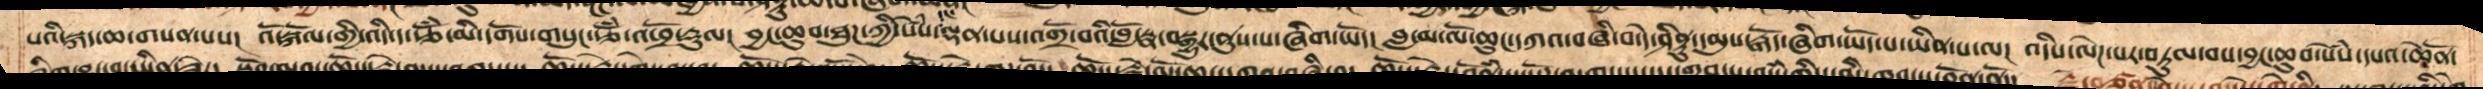པའི་སྐད་ཆ་གསན་པས། འོ་སྐོལ་གྱི་འདི་ད་རྩོཾ་མི་དགོས་གསུང་རྩོཾ་འཕྲོ་རྟུལ། བྱང་ཆུབ་ཐུཌ་ཀྱི་སེཾས་དང་ལྡན་པས་འགྲོ་བའི་བློ་སྣ་བསྒྱུར་ནུས་པ་ཞིག་ཡོད། བླ་མ་ལོ་ཆུང་དཀའ་བཞི་བ་དེ་ཤིནྟུ་དམུས་རྒོད་ཞིག་ཡོད་པ་ཡིན་པ་ལ། འདིས་ལེཌ་པར་བཏུལ་བས་བྱང་ཆུབ་སེཾས་དཔའ་ཆེནོ་
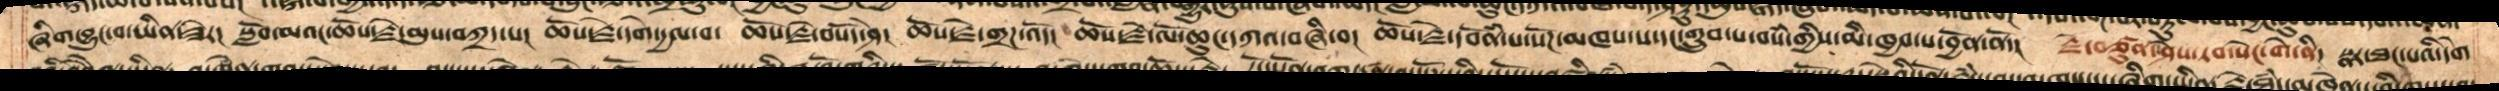ཞིག་བྱུང་བ་ཡིན་ཟེར། སློབ་མའང་ཆོས་རྗེ་མུས་བཀྲད་པ། ཆོས་རྗེ་དགེ་དྱལ་བ་ ཆོས་རྗེ་བསོད་ཤེ། ཆོས་རྗེ་གྲཌ་འོད། ཆོས་རྗེ་ལོ་ཆུང་དཀའ་བཞི་བ། ཆོས་རྗེ་དབོནཾ་པ་སོཌ་མཁས་པ་དང་གྲུབ་པ་བསཾ་གྱིས་མི་ཁྱབ་པ་བྱོན་ནོ་།  རྗེ་བཙུན་ཤེས་རབ་སེང་གེ་ནི། སྣར་ཐང་པའི་དགེ
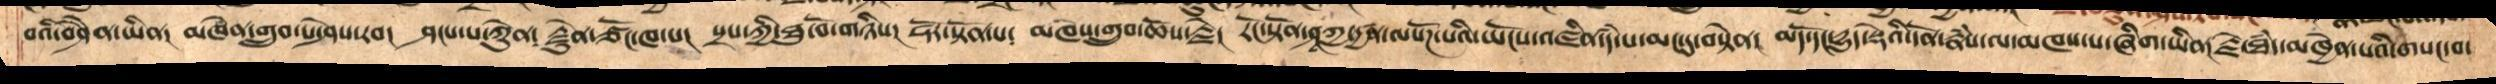བའི་བཤཻན་ཡིན། མཁེན་གྲུབ་པ་ཤེས་རབ། ཤངས་པ་ཀྱེུན། རྗེུན་ཙོང་ཁ་པ། སྲས་ཀྱི་ཐུ་བོ་གཉིས། ཧོར་སྟོན་པ། མཁས་གྲུབ་ཆོས་རྗེ། རོང་སྟོན་ཤཱཀྱ་དྱཚན་ལསོཌ་པའི་ཡོངས་འཛིན་དཾ་པ་མང་དུ་བསྟེན། མདོ་དང་དྱུད་སྡེའི་དོན་རྣཾས་ལ་མཁས་པ་ཞིག་ཡིན། རྗེ་ཐཾད་མཁྱེན་པའི་གསང་བ་
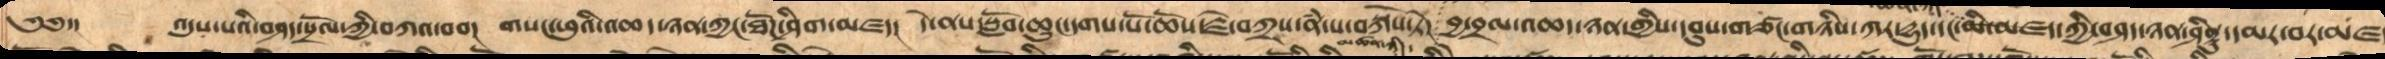༄༅་།   འདུས་པའི་བཤད་སྲོལ་གྱི་བཀའ་བབ། གསང་ཕུའི་འཆད་ཉན་ཀྱང་ཐོཌ་ཤིག་མཛད།  དེ་ནས་སློབ་ཆུང་དགས་པོ་ཆོས་རྗེ་བཀྲས་ནཾ་ས་བསྐོས་ཏེ། བྱ་བྲལ་འཆད་ཉན་གྱིས་དབུས་གཙང་གཉིས་ཀར་དྱུད་དང་མི་མཛད་ཀྱི་ཤིནྟུ་དམར་བར་མཛ
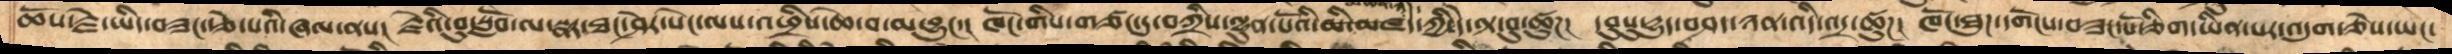ཆོས་རྗེ་ཡིད་བཟང་རྩེ་པའི་ཞལ་ནས། རྗེས་བུ་སློབ་ལ་སྣར་ཐང་ཤེར་སེང་ལས་འཕྲིས་ཆེ་བ་མ་བྱུང་། ཁོང་གིས་གཙང་དུ་བཀྲིས་ལྷུན་པོའི་མཚན་ཉིད་ཀྱི་དེ་ལྟ་བུ་ཚུཌ།  དབུསུ་དྱུད་བཤད་ཉན་འདི་འདྲ་ཚུཌ། ཁོང་ཐུཌ་དགོངས་བཟང་པོ་ཅིག་ཡིན་པར་འདུག་ཅེས་ཡང་
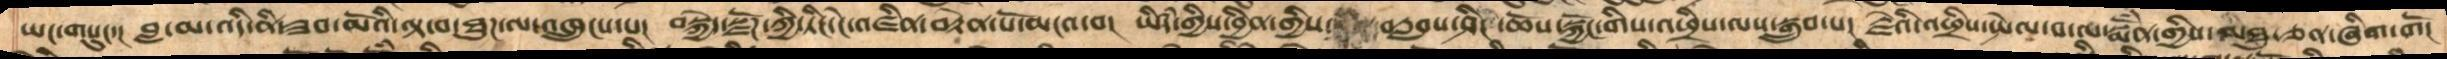ཡང་གསུང་།  བླ་མ་འདི་ནི་ཟབ་མོའི་ལྟ་བ་ཐུཌ་ལ་འཁྲུངས་པ།  བསྐྱེད་སྫོཌ་ཀྱི་ཏིང་ངེ་འཛིན་བརྟེན་པོ་མངའ་བ།  ཡིདཾ་གྱིས་བྱིན་གྱིས་བརླབས་ཤིང་ཆོས་སྐྱོང་གིས་འཕྲིས་ལས་སྒྲུབ་པ།  རྗེའི་འཕྲིས་སྤེལ་བ་ལ་སྨོཾན་གྱིས་མཐུ་ཅན་ཞིག་གོ།
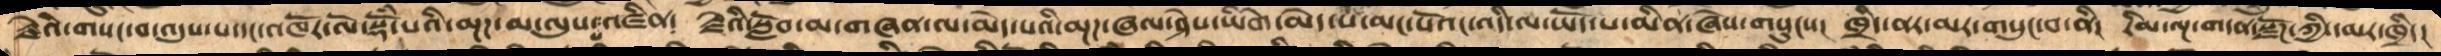རྗེའི་གསང་བ་འདུས་པ་དང་འཁོར་ལོ་སྡོཾ་པའི་མྔཌ་མ་ལུས་པ་འཛིན༴ རྗེའི་སློབ་མ་གཞན་ལ་མེད་པའི་མྔཌ་ཞལ་ཤེས་ཡིགེ་མེད་པ་མང་པོའང་འདི་ལ་ཡོད་པ་མིན་ཞེས་གསུངས། ཁྲིད་ནར་མར་གསུང་བ་ནི། རིམ་ལྔ་གདན་སྫོཌ་ཀྱི་དམར་ཁྲིད།
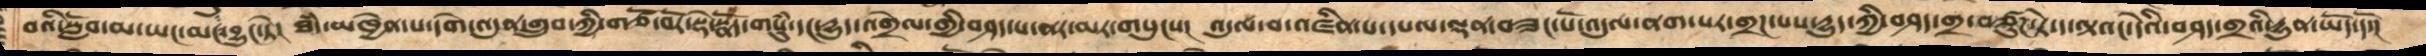བའི་སློབ་མ་ཡང་མང་བྱུང་ཏེ།  ཐཾད་མཁྱེན་པ་དགེ་འདུན་གྲུབ་ཀྱི་གཙོ་བོར་སྡེ་སྣོད་གསུཾ་དང་དྱུད་འགྲེལ་གྱི་བཤད་པ་ནར་མར་གསུངས།  འདུལ་བ་འཛིན་པ་དཔལ་ལྡན་བཟང་པོ་འདུལ་ནག་པར་གྲཌ་པས་དྱུད་ཀྱི་བཤད་གྲ་བཙུཌ་ཏེ་ད་ལྟའང་དེའི་བཤད་གྲའི་དྱུན་ཡོད་དོ་།
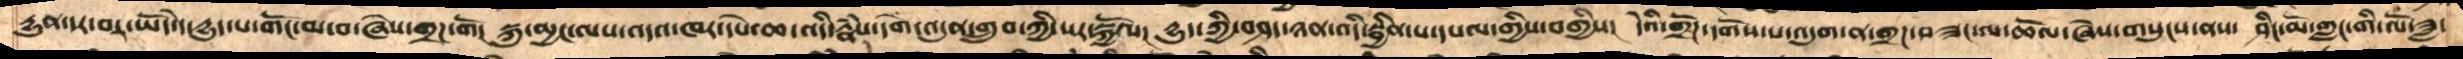དྱུན་དར་བར་ཡོད་དེ་དྱུད་པ་གོང་མ་བ་ཞེས་གྲཌ་གོ།  སྐུ་མྱང་ལས་འདའ་ཁར་དཔེ་ཆ་འདི་རྣཾས་དགེ་འདུན་གྲུབ་ཀྱི་སར་སྐྱོལ།  དྱུད་ཀྱི་བཤད་ཉན་འདི་སྦྱིན་པ་དཔལ་གྱིས་བགྱིས།  དེའི་གྲོཌ་དགོས་པ་འདུག་ན་གྲཌ་བཟང་ལ་ཆོལ་ཞེས་གསུངས་ནས་ ཤིང་མོ་གླང་གི་ལོ་ཟླ་
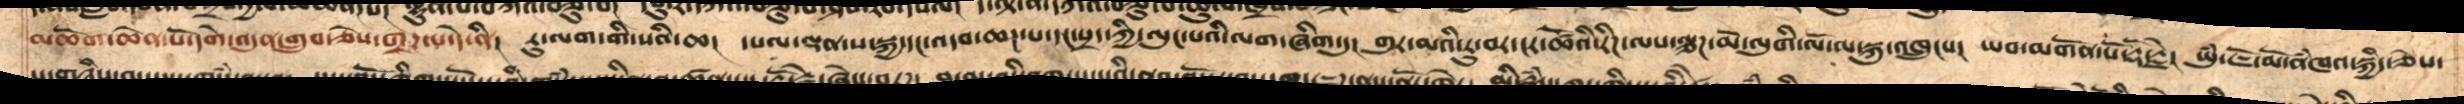མཆོག་ཆེན་པོ་དགེ་འདུན་གྲུབ་ཅེས་གྲཌ་པ་དེ་ནི། རུ་ལག་གི་སའི་ཆ། དཔལ་ལྡན་ས་སྐྱ་དང་འདབ་ཆཌ་པ་དང་སྲད་ཀྱི་ལུང་པའི་ལག་ཞིག་དུ། གུར་མའི་རུ་བར་ངར་ཚོའི་རིཌ་ལས་ལྕཌ་མོ་ལུགི་ལོ་ལ་སྐུ་འཁྲུངས། ཡབ་མགོན་པོ་རྡོ་རྗེ། ཡུཾ་ཇོ་མོ་ནཾཁའ་སྐྱིད་ཅེས་
